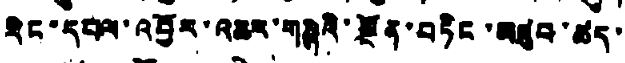རིང་དཔལ་འབྱོར་འཆར་གཞིའི་སྔོན་བཏིང་མཛུབ་ཚད་
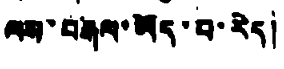ལས་བརྒལ་ཡོད་པ་རེད།
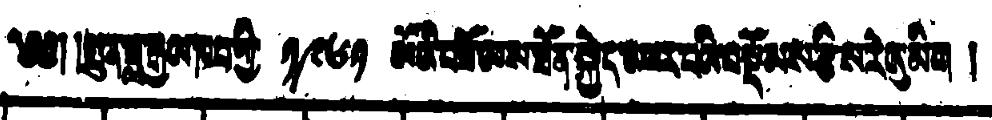༄༅། །སྤུན་ཟླ་རྒྱལ་ཁབ་གྱི་ ༡༩༦༡ ལོའི་བཟོ་ལས་ཐོན་སྐྱེད་འཕར་པའི་བསྡོམས་རྩིས་རེའུ་མིག །
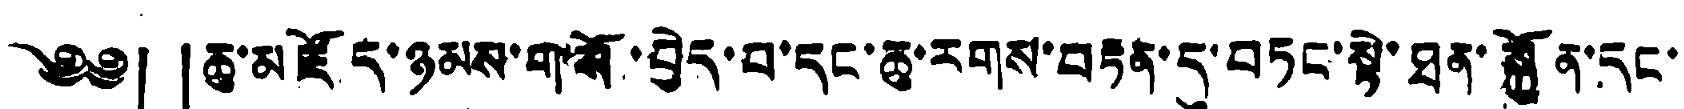༄༅། །ཆུ་མཛོད་ཉམས་གསོ་བྱེད་པ་དང་ཆུ་རགས་བརྟན་དུ་བཏང་སྟེ་ཐན་སྐྱོན་དང་
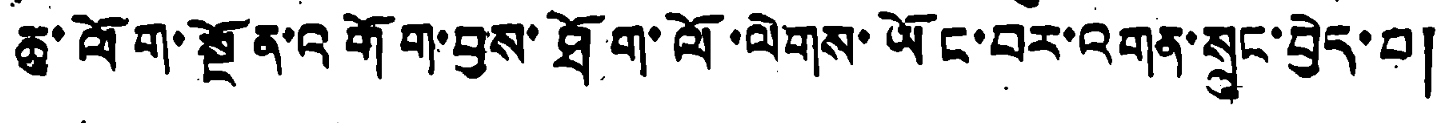ཆུ་ལོག་སྔོན་འགོག་བྱས་ཐོག་ལོ་ལེགས་ཡོང་བར་འགན་སྲུང་བྱེད་པ།
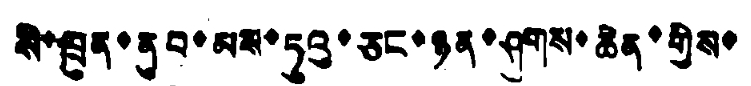སི་ཁྲུན་ནུབ་མས་ཏུའུ་ཅང་ཉན་ཤུགས་ཆེན་གྱིས་
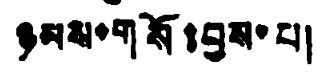ཉམས་གསོ་བྱས་པ།
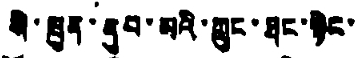སི་ཁྲུན་ནུབ་མའི་ཀླུང་ཐང་སྟེང་
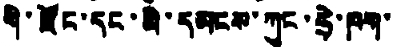གི་རྫོང་དང་མི་དམངས་ཀུང་ཧྲེ་ཁག་
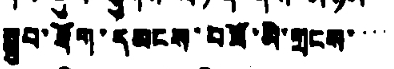སྒྲུབ་ཐོག་དམངས་བཟོ་མི་གྲངས་་་་
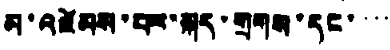མ་འཛེམས་པར་སྐད་གྲགས་དང་་་་
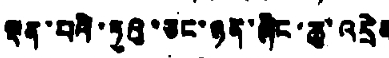ལྡན་པའི་ཏུའུ་ཅང་ཉན་ཞིང་ཆུ་འདྲེན
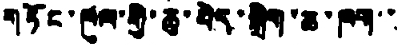གཏོང་ཁུལ་གྱི་ཆུ་བེད་སྒྲིག་ཆ་ཁག་་
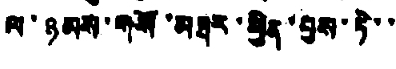ལ་ཉམས་གསོ་མཐར་ཕྱིན་བྱས་ཏེ་་
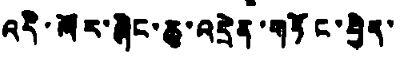འདི་མོར་ཞིང་ཆུ་འདྲེན་གཏོང་བྱེད་
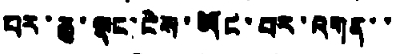པར་ཆུ་ལྡང་ངེས་ཡོང་བར་འགན་་
